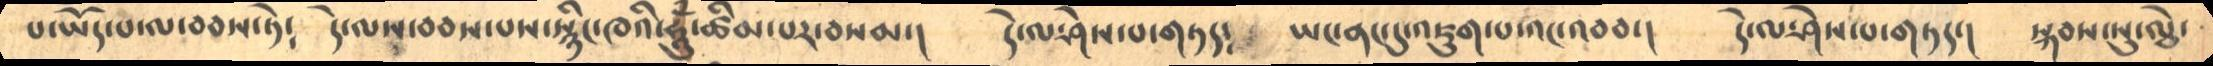པ་ཡོད་པ་ལ་བབས་ཏེ༴     དེ་ལས་བབས་པས་སྙིང་ཁའི་ཧཱུྃ་ཚིམ་པར་བསམ་།    དེ་ལ་ཤེས་པ་གཏད༴      ཡང་ནང་དུ་འཇུག་པ་འང་འབབ་།    དེ་ལ་ཤེས་པ་གཏད་།    སྐབས་སུ་ལྕེ་
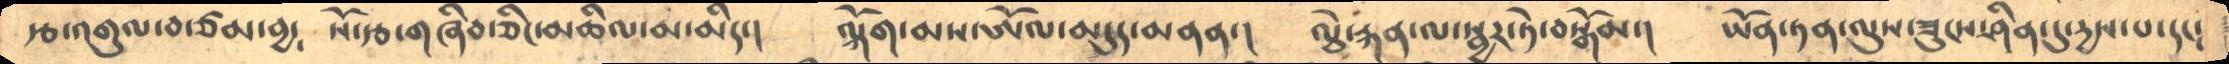རྩ་འགུལ་བ་ཙམ་བྱ༴    སོ་རྩ་གཞིབ་ཅིང་མཆིལ་མ་མིད་།      ལྐོག་མས་ཨོལ་མདུད་མནན་།     ལྕེ་རྐན་ལ་སྦྱར་ཏེ་བསྒོམ་།    ཡོན་ཏན་ལུས་ཟུངས་ཤིན་དུ་དྱས་པ་དང༴
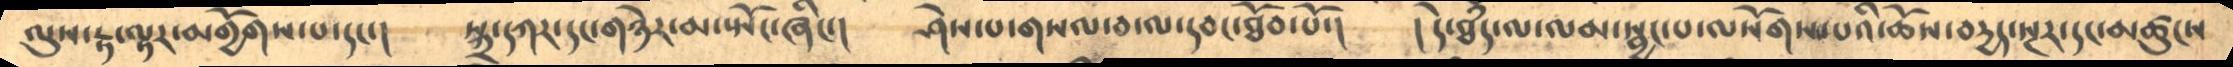ལུས་རྟ་ལྟར་མགྱོགས་པ་དང་།     སྐྲ་དཀར་དང་གཉེར་མ་སྤོང་ཞིང་།     ཤེས་པ་གསལ་བ་ལ་དབང་ཐོབ་པོ་།     །དེ་ཐཾད་ལ་ལམ་སྦྱང་པ་ལསོགས་པའི་ཆོས་བདྱད་སྔར་དང་མཚུངས
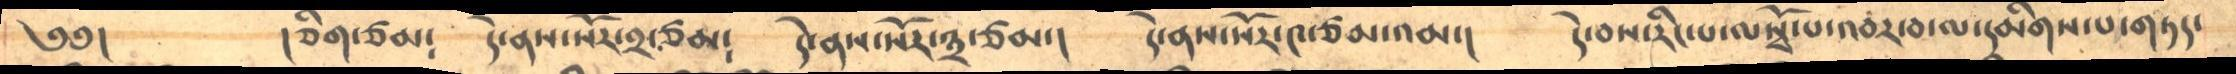༄༅།     །ཅིག་ཙམ༴    དེ་ནས་སོར་༢་ཙམ༴     དེ་ནས་སོར་༣་ཙམ་།     དེ་ནས་སོར་༤་ཙམ་འམ་།   དེ་བས་རིང་པ་ལསྭོ་པ་འབར་བ་ལ་དམིགས་པ་གཏད་
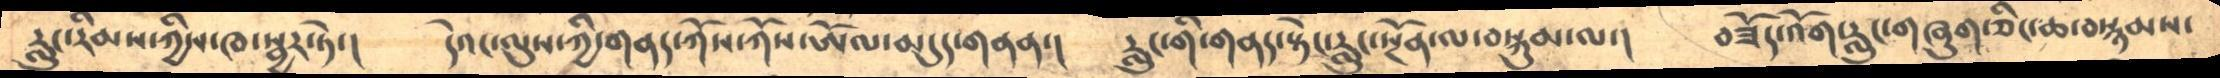རླུང་རིམས་ཀྱིས་ཁ་སྦྱར་ཏེ་།     དེའང་ལུས་ཀྱི་གནད་ཀོས་ཀོས་ཨོལ་མདུད་གནན་།     རླུང་གི་གནད་སྟེང་རླུང་སྔོན་ལ་བསྐུམ་ལ་།     བཟོད་འོག་རླུང་གཞུག་ཅིང་ཆ་བསྙམས་
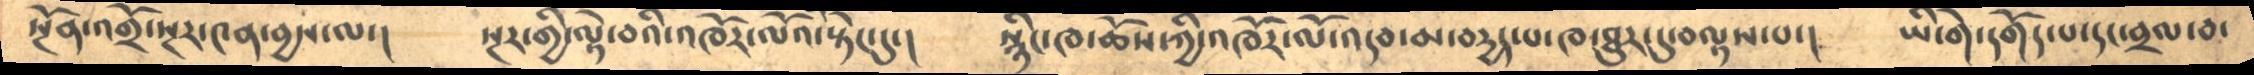སྔོན་འགྲོ་སྔར་༤ན་བྱས་ལ་།     སྔར་གྱི་ལྟེ་བའི་འཁོར་ལོའི་སྟེང་ངུ་།     སྙིང་ཁ་ཆོས་ཀྱི་འཁོར་ལོ་འདབ་མ་བདྱད་པ་ཁ་ཐུར་དུ་བལྟས་པ་།     ཡི་གེ་དགོད་པ་དང་བྲལ་བ་
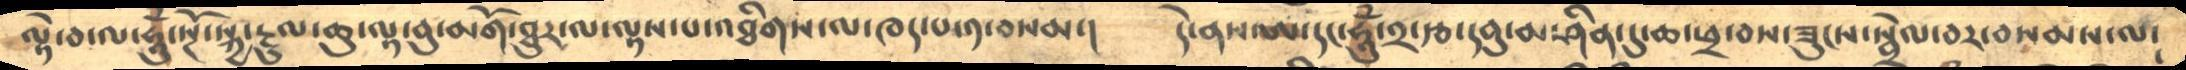ལྟེ་བ་ལ་ཧཱུྃ་སྔོ་སྐྱ་རྔུལ་ཆུ་ལྟ་བུ་མགོ་ཐུར་ལ་ལྟས་པ་འཐིགས་ལ་ཁད་པ་༡་བསམ་།     དེ་ནས་ཨ་དང་ཧཱུཾ་༢་རྩ་དབུ་མ་ཤིན་དུ་ཆ་ཕྲ་བས་ཟུངས་སྦྲེལ་བར་བསམས་ལ་
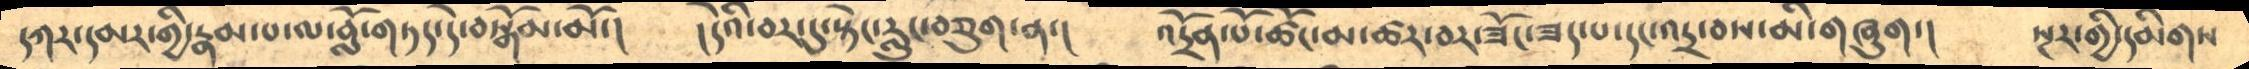དཀར་དམར་གྱི་རྣམ་པ་ལ་བློ་གཏད་དེ་བསྒོམ་མོ་།     །དེའི་བར་དུ་སྟེང་རླུང་བཅུག་ན་།     འདྲོན་པོ་ཚོང་མ་ཚར་བར་ཟོང་ཟད་པ་དང་འདྲ་བས་མི་གཞུག་།     སྔར་གྱི་དམིགས
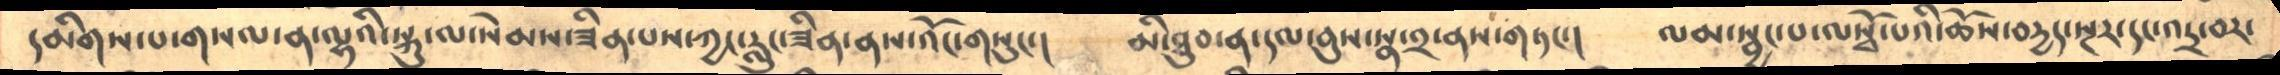དམིགས་པ་གསལ་ན་ལྷའི་སྐུ་ལ་སེམས་ཟིན་པས་ཀྱང་རླུང་ཟིན་ནས་འོང་གསུང་།     མི་ཐུབ་ན་དལ་བུས་སྣ་༢་ནས་གཏང་།      ལམ་སྦྱང་པ་ལསྭོ་པའི་ཆོས་བདྱད་སྔར་དང་འདྲ་བར་
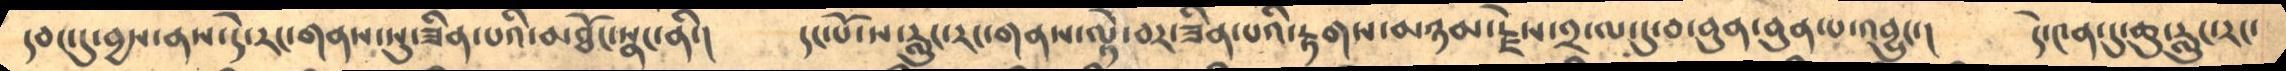དབང་དུ་བྱས་ནས་དེ་རང་གནས་སུ་ཟིན་པའི་མཐོང་སྣང་ནི་།    དང་པོ་ས་རླུང་རང་གནས་ལྟེ་བར་ཟིན་པའི་རྟགས་མཉམ་རྗེས་༢་ལ་དུ་བ་བུན་བུན་པ་འབྱུང་།     དེ་༤ན་དུ་ཆུ་རླུང་རང་
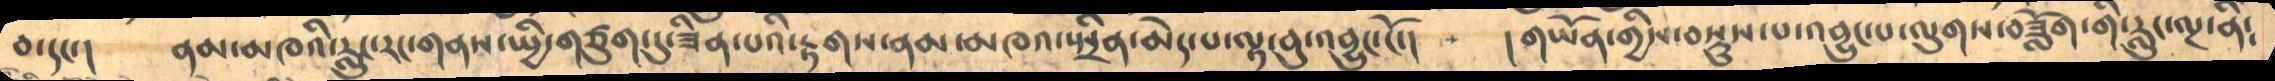བ་དང་།     ནམ་མཁའི་རླུང་གནས་སྤྱི་གཙུག་དུ་ཟིན་པའི་རྟགས་ནམ་མཁའ་སྤྲིན་མེད་པ་ལྟ་བུ་འབྱུང་ངོ་།      །གཡོན་གྱིས་བསྡུས་པ་འབྱུང་པ་ལུགས་བཟློག་གི་རླུངཡང་ལྔ་ནི༴
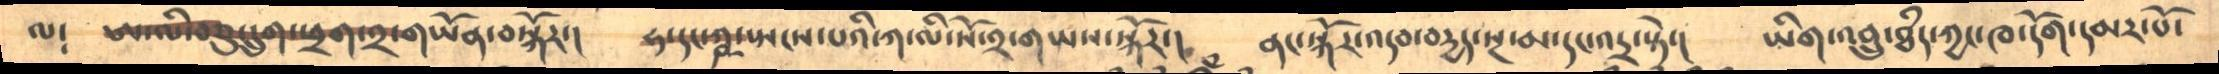ལ༴    ཨ་ལི་བཅུ་དྲུག་ཕྲག་༢་གཡོན་བསྐོར་།     ཧ་དང་ཀྵ་སྤངས་པའི་ཀ་ལི་སོ་༢་གཡས་སྐོར་།     ནང་སྐོར་འདབ་བདྱད་སྔ་མ་དང་འདྲ་སྟེ་།    ཡིག་འབྲུ་ཐཾད་ཀྱང་ཁ་དོག་དམར་པོ་
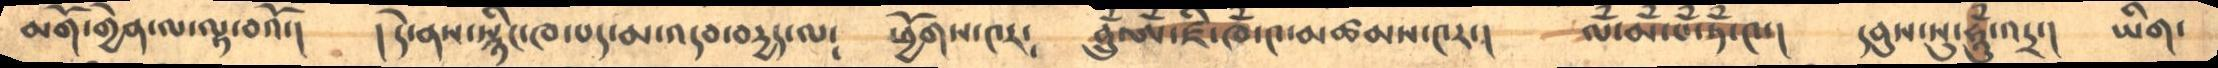མགོ་གྱེན་ལ་ལྟ་བའོ་།     །དེ་ནས་སྙིང་ཁ་པད་མ་འདབ་བདྱད་ལ༴      ཕྱོགས་༤ར༴     བྲུཾ་ཨོཾ་ཛི་ཁཾ་༤་མཚམས་༤ར་།     ལཾ་མཾ་པཾ་ཏཾ་༤་།     དབུས་སུ་ཧཱུྃ་འདྲ་།     ཡིག་
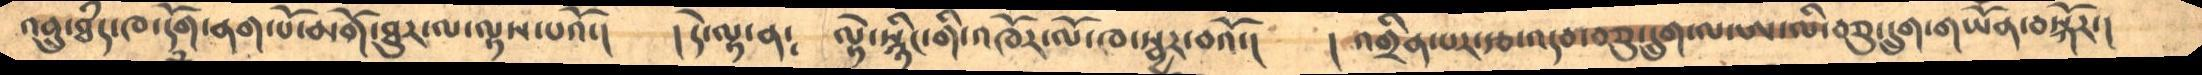འབྲུ་ཐཾད་ཁ་དོག་ནག་པོ་མགོ་ཐུར་ལ་ལྟས་པའོ་།     །དེ་ལྟ་ན༴     ལྟེ་སྙིང་གི་འཁོར་ལོ་ཁ་སྦྱར་བའོ་།     །འགྲིན་པར་རྩ་འདབ་བཅུ་དྲུག་ལ་ཨ་ལི་བཅུ་དྲུག་གཡོན་བསྐོར་།
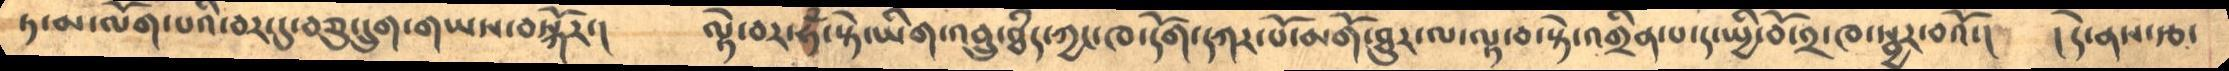ཏ་མ་ལོག་པའི་བར་དུ་བཅུ་དྲུག་གཡས་བསྐོར་།     ལྟེ་བར་ཧྃ་སྟེ་ཡིག་འབྲུ་ཐཾད་ཀྱང་ཁ་དོག་དཀར་པོ་མགོ་ཐུར་ལ་ལྟ་བ་སྟེ་འགྲིན་པ་ད་སྤྱི་བོ་༢་ཁ་སྦྱར་བའོ་།     །དེ་ནས་རྩ་
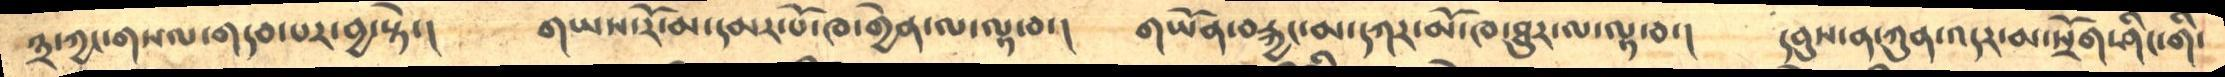༣་ཀྱང་གསལ་གདབ་པར་བྱ་སྟེ་།      གཡས་རོ་མ་དམར་པོ་ཁ་གྱེན་ལ་ལྟ་བ་།    གཡོན་བརྐྱང་མ་དཀར་མོ་ཁ་ཐུར་ལ་ལྟ་བ་།    དབུས་ན་ཀུན་འདར་མ་སྲོག་ཤིང་གི་
